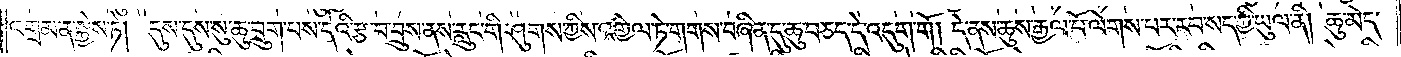འགྲམ་ན་སྐྱེས་ཏེ། དུས་དུས་སུ་ཆུ་བྲུག་པས་དེའི་རྩ་བ་བྲུས་ནས་རླུང་གི་ཤུགས་ཀྱིས་འགྱེལ་ཏེ་གགས་བཞིན་དུ་ཆུ་བཅད་དེ་འདུག་གོ། དེ་ནས་ཆུས་རྒྱལ་པོ་ལེགས་པར་རབ་སད་ཀྱི་ཡུལ་ནི། ཆུ་མེད་
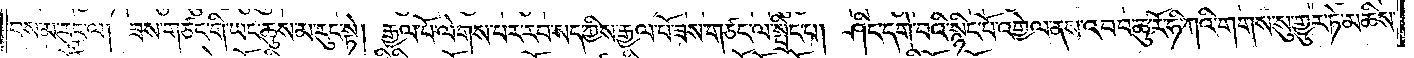བས་མ་རུང་ལ། ཟས་གཙང་གི་ཡང་ཆུས་མ་རུང་སྟེ། རྒྱལ་པོ་ལེགས་པར་རབ་སད་ཀྱིས་རྒྱལ་པོ་ཟས་གཙང་ལ་སྤྲིང་པ། ཤིང་དགེ་བའི་སྙིང་པོ་འགྱེལ་ནས་འབབ་ཆུ་རོ་ཧི་ཀའི་གགས་སུ་གྱུར་ཏེ་མཆིས་
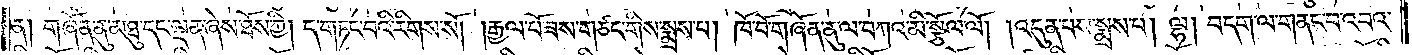ན། གཞོན་ནུ་མཐུ་དང་ལྡན་ཞེས་ཐོས་ཀྱི། ད་གཏང་བའི་རིགས་སོ། །རྒྱལ་པོ་ཟས་གཙང་གིས་སྨྲས་པ། ཁོ་བོ་གཞོན་ནུ་ལ་བཀའ་མི་སྩོལ་ལོ། །འདུན་པས་སྨྲས་པ། ལྷ། བདག་ལ་གནང་བ་འབའ་
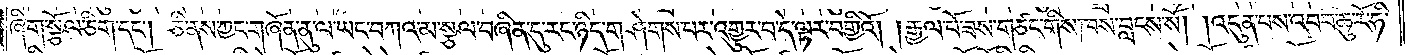ཞིག་སྩོལ་ཅིག་དང༌། ཅི་ནས་ཀྱང་གཞོན་ནུ་ལ་ཡང་བཀའ་མ་སྩལ་བཞིན་དུ་རང་ཉིད་གཤེགས་པར་འགྱུར་བ་དེ་ལྟར་བགྱིའོ། །རྒྱལ་པོ་ཟས་གཙང་གིས་ཁས་བླངས་སོ། །འདུན་པས་འབབ་ཆུ་རོ་ཧི་
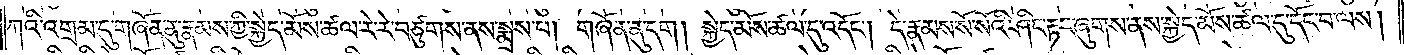ཀའི་འགྲམ་དུ་གཞོན་ནུ་རྣམས་ཀྱི་སྐྱེད་མོས་ཚལ་རེ་རེ་བཙུགས་ནས་སྨྲས་པ། གཞོན་ནུ་དག །སྐྱེད་མོས་ཚལ་དུ་འདོང༌། དེ་རྣམས་སོ་སོའི་ཤིང་རྟར་ཞུགས་ནས་སྐྱེད་མོས་ཚལ་དུ་དོང་བ་ལས།
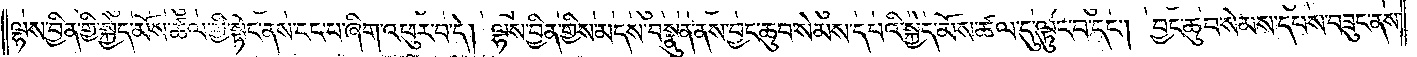ལྷས་བྱིན་གྱི་སྐྱེད་མོས་ཚལ་གྱི་སྟེང་ནས་ངང་པ་ཞིག་འཕུར་བ་དེ། ལྷས་བྱིན་གྱིས་མདས་བསྣུན་ནས་བྱང་ཆུབ་སེམས་དཔའི་སྐྱེད་མོས་ཚལ་དུ་ལྟུང་བ་དང༌། བྱང་ཆུབ་སེམས་དཔས་བཟུང་ནས་
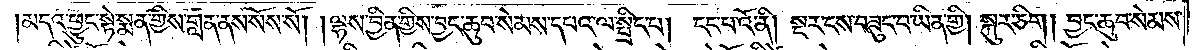མདའ་ཕྱུང་སྟེ་སྨན་གྱིས་གླན་ནས་སོས་སོ། །ལྷས་བྱིན་གྱིས་བྱང་ཆུབ་སེམས་དཔའ་ལ་སྤྲིང་པ། ངང་པའོ་ནི། སྔར་ངས་བཟུང་བ་ཡིན་གྱི། སྐུར་ཅིག །བྱང་ཆུབ་སེམས་
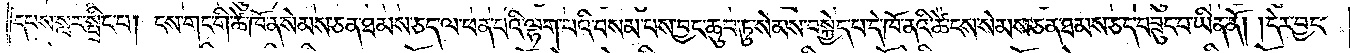དཔས་སླར་སྤྲིང་པ། ངས་གང་གི་ཚེ་ཁོ་ན་སེམས་ཅན་ཐམས་ཅད་ལ་ཕན་པའི་ལྷག་པའི་བསམ་པས་བྱང་ཆུབ་ཏུ་སེམས་བསྐྱེད་པ་དེ་ཁོ་ནའི་ཚེ་ངས་སེམས་ཅན་ཐམས་ཅད་བཟུང་བ་ཡིན་ནོ། །དེར་བྱང་
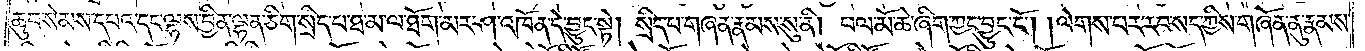ཆུབ་སེམས་དཔའ་དང་ལྷས་བྱིན་ལྷན་ཅིག་སྲིད་པ་ཐ་མ་ལ་ཐོག་མར་ཤ་འཁོན་དེ་བྱུང་སྟེ། སྲིད་པ་གཞན་རྣམས་སུ་ནི། ཕལ་མོ་ཆེ་ཞིག་ཀྱང་བྱུང་ངོ༌། །ལེགས་པར་རབ་སད་ཀྱིས་གཞོན་ནུ་རྣམས་
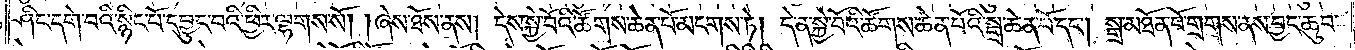ཤིང་དགེ་བའི་སྙིང་པོ་དབྱུང་བའི་ཕྱིར་ལྷགས་སོ། །ཞེས་ཐོས་ནས། དེས་སྐྱེ་བོའི་ཚོགས་ཆེན་པོ་མངགས་ཏེ། དེ་ན་སྐྱེ་བོའི་ཚོགས་ཆེན་པོའི་སྒྲ་ཆེན་པོ་དང༌། སྒྲ་མཐོན་པོ་གྲགས་ནས་བྱང་ཆུབ་
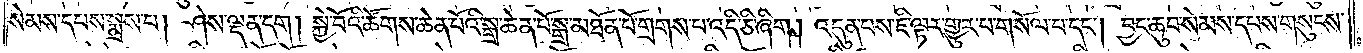སེམས་དཔས་སྨྲས་པ། ཤེས་ལྡན་དག །སྐྱེ་བོའི་ཚོགས་ཆེན་པོའི་སྒྲ་ཆེན་པོ་སྒྲ་མཐོན་པོ་གྲགས་པ་འདི་ཅི་ཞིག །འདུན་པས་ཇི་ལྟར་གྱུར་པ་གསོལ་པ་དང༌། བྱང་ཆུབ་སེམས་དཔས་གསུངས་
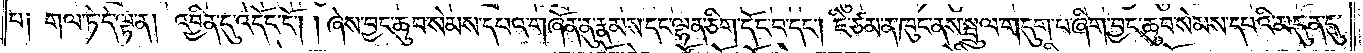པ། གལ་ཏེ་དེ་ལྟ་ན། འབྱིན་དུ་འདོང་ངོ༌། །ཞེས་བྱང་ཆུབ་སེམས་དཔའ་གཞོན་ནུ་རྣམས་དང་ལྷན་ཅིག་དོང་བ་དང༌། ཇི་ཙམ་ན་ཁུང་ནས་སྤྲུལ་གདུག་པ་ཞིག་བྱང་ཆུབ་སེམས་དཔའི་མདུན་དུ་
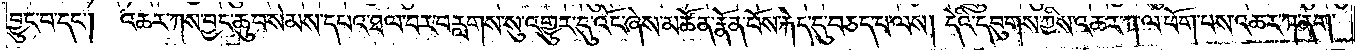བྱུང་བ་དང༌།    འཆར་ཀས་བྱང་ཆུབ་སེམས་དཔའ་ཐལ་བར་བརླགས་སུ་འགྱུར་དུ་འོང་ཞེས་མཚོན་རྣོན་པོས་རྐེད་དུ་བཅད་པ་ལས། དེའི་དབུགས་ཀྱིས་འཆར་ཀ་ལ་ཕོག་པས་འཆར་ཀ་ནག་
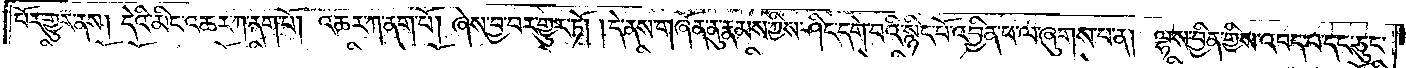བོར་གྱུར་ནས། དེའི་མིང་འཆར་ཀ་ནག་པོ། འཆར་ཀ་ནག་པོ། ཞེས་བྱ་བར་གྱུར་ཏོ། །དེ་ནས་གཞོན་ནུ་རྣམས་ཀྱིས་ཤིང་དགེ་བའི་སྙིང་པོ་འབྱིན་པ་ལ་ཞུགས་པ་ན། ལྷས་བྱིན་གྱིས་འབད་པ་དང་ཅུང་
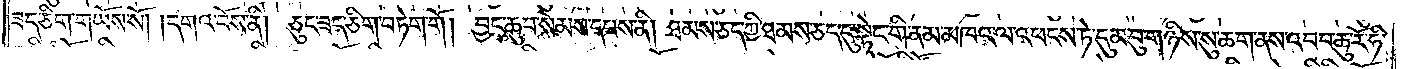ཟད་ཅིག་གཡོས་སོ། །དགའ་བོས་ནི། ཅུང་ཟད་ཅིག་བཏེག་གོ། བྱང་ཆུབ་སེམས་དཔས་ནི། ཐམས་ཅད་ཀྱི་ཐམས་ཅད་དུ་སྟེང་གི་ནམ་མཁའ་ལ་འཕངས་ཏེ་དུམ་བུ་གཉིས་སུ་ཆག་ནས་འབབ་ཆུ་རོ་ཧི་
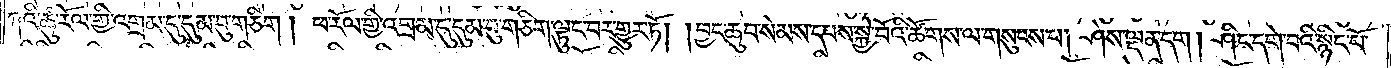ཀའི་ཚུ་རོལ་གྱི་འགྲམ་དུ་དུམ་བུ་གཅིག །ཕ་རོལ་གྱི་འགྲམ་དུ་དུམ་བུ་གཅིག་ལྟུང་བར་གྱུར་ཏོ། །བྱང་ཆུབ་སེམས་དཔས་སྐྱེ་བོའི་ཚོགས་ལ་གསུངས་པ། ཤེས་ལྡན་དག །ཤིང་དགེ་བའི་སྙིང་པོ་
